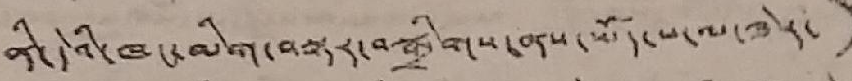ནི་དེའི་ཁང་མིག་བསྟར་བསྒྲིགས་ནས་ཡོད་པ་ལ་ཟེར་)
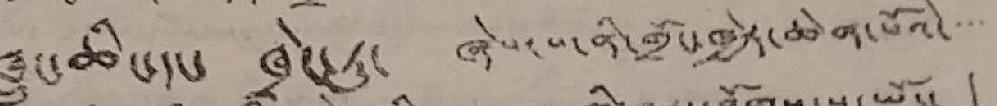ཁྲུང་ཆིང་དང་ ཁྲེང་ཏུ་ ཞེས་པ་ནི་གྲོང་ཁྱེར་ཆེན་པོའི་་་་
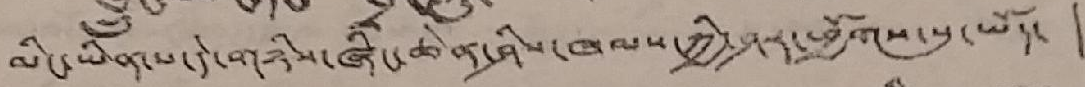མིང་ཡིན་པ་དེ་གཉིས་ཞིང་ཆེན་ཤིས་ཁམས་ཀྱི་ཤར་ཕྱོགས་སུ་ཡོད་ །
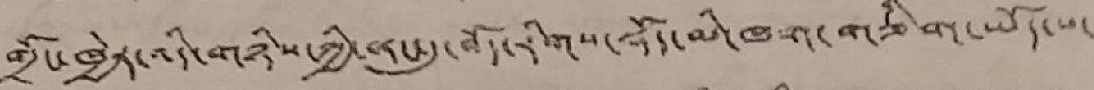གྲོང་ཁྱེར་འདི་གཉིས་ཀྱི་ནང་དུ་བོད་རིགས་སྡོད་མི་ཁག་གཅིག་ཡོད་པ་
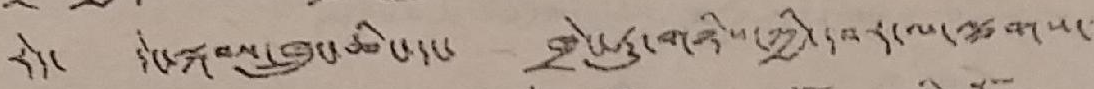རེད་ དེང་སྐབས་ཁྲུང་ཆིང་དང་ ཁྲེང་ཏུ་གཉིས་ཀྱི་བར་ལ་ལྕགས་
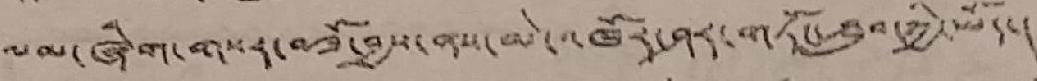ལམ་ཞིག་གསར་བཟོ་བྱས་ནས་མེ་འཁོར་ཤར་གཏོང་ཐུབ་ཀྱི་ཡོད་།
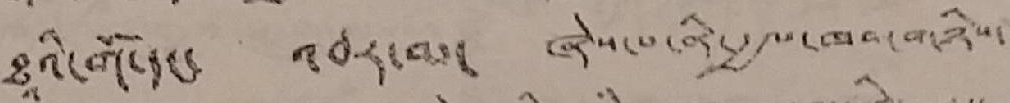ཐཱའི་གོ་དང་ འབར་མ་ ཞེས་པ་ནི་རྒྱལ་ཁབ་གཉིས་
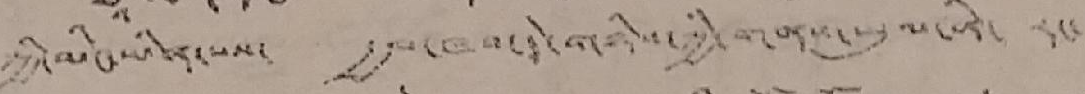ཀྱི་མིང་ཡིན་པས་ རྒྱལ་ཁབ་དེ་གཉིས་ཀྱི་གནས་ཡུལ་ནི་ རང་
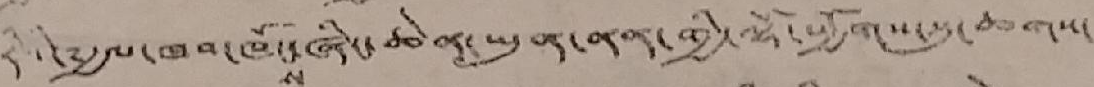རེའི་༸རྒྱལ་ཁབ་ཁོང་ཞིང་ཆེན་ཡུན་ནན་གྱི་ལྷོ་ཕྱོགས་སུ་ཆགས་
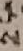ས
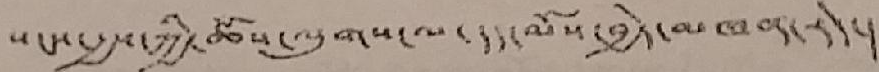སང་རྒྱས་ཀྱི་ཆོས་ལུགས་ལ་དད་མོས་བྱེད་མཁན་རེད་།
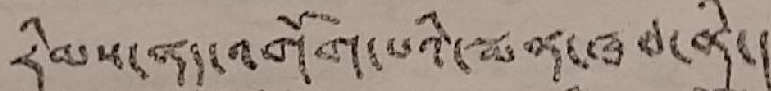རིམས་ནད་འགོག་པའི་སྨན་ཁབ་ནི་།
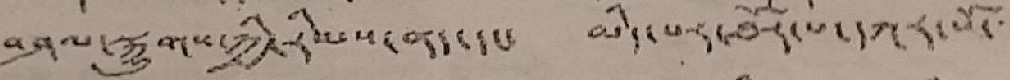བཤལ་སྐྱུགས་ཀྱི་རིམས་ནད་དང་ མིད་པར་ཐོར་པ་དཀར་པོ་་་
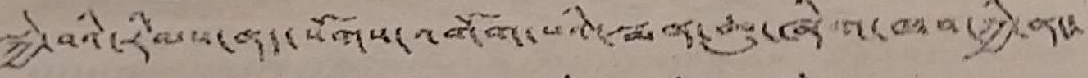སྐྱེ་བའི་རིམས་ནད་སོགས་འགོག་པའི་སྨན་ཆུ་ཞིག་ཁབ་ཀྱི་ནང་
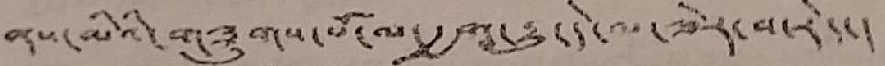ནས་མིའི་གཟུགས་པོ་ལ་རྒྱག་རྒྱུ་དེ་ལ་ཟེར་པ་རེད་།
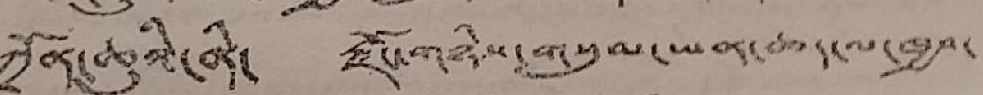ཀྲོན་ཆུའི་ནི་ རྫོང་གཉིས་གསུམ་ལ་ཡན་ཆད་ལ་ཁྱབ་
